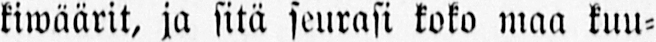kiwäärit, ja sitä seurasi koko maa kuu-
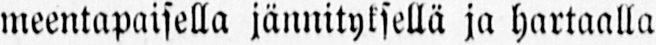meentapaisella jännityksellä ja hartaalla
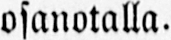osanotolla.
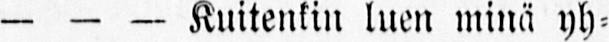— — — Kuitenkin luen minä yh-
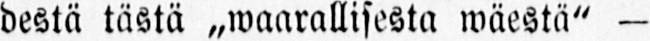destä tästä „waarallisesta wäestä" —
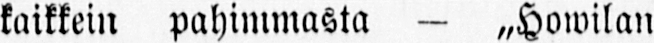kaikkein pahimmasta — „Howilan
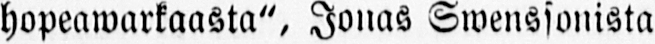hopeawarkaasta", Jonas Swenssonista
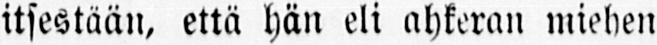itsestään, että hän eli ahkeran miehen
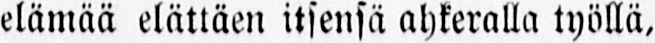elämää elättäen itsensä ahkeralla työllä,
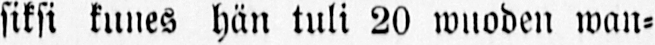siksi kunes hän tuli 20 wuoden wan-
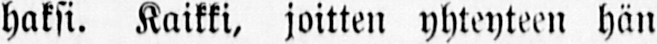haksi. Kaikki, joitten yhteyteen hän
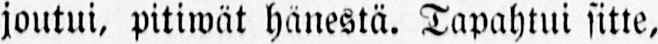joutui, pitiwät hänestä. Tapahtui sitte,
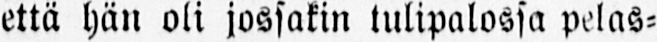että hän oli jossakin tulipalossa pelas-
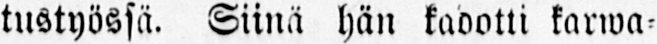tustyössä. Siinä hän kadotti karwa-
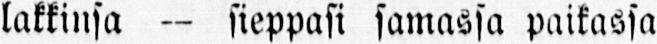lakkinsa — sieppasi samassa paikassa
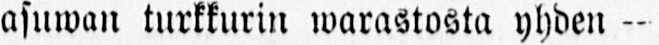asuwan turkkurin warastosta yhden —
